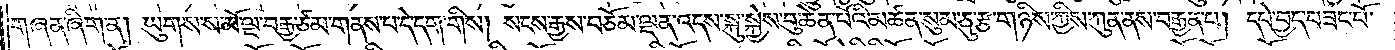གཞན་ཞིག་ན། ཡུགས་ས་མོ་ལྔ་བརྒྱ་ཙམ་གནས་པ་དེ་དག་གིས། སངས་རྒྱས་བཅོམ་ལྡན་འདས་སྐུ་སྐྱེས་བུ་ཆེན་པོའི་མཚན་སུམ་ཅུ་རྩ་གཉིས་ཀྱིས་ཀུན་ནས་བརྒྱན་པ། དཔེ་བྱད་བཟང་པོ་
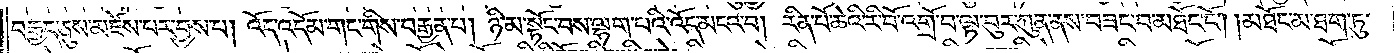བརྒྱད་ཅུས་མཛེས་པར་བྱས་པ། འོད་འདོམ་གང་གིས་བརྒྱན་པ། ཉི་མ་སྟོང་བས་ལྷག་པའི་འོད་མངའ་བ། རིན་པོ་ཆེའི་རི་བོ་འགྲོ་བ་ལྟ་བུར་ཀུན་ནས་བཟང་བ་མཐོང་ངོ༌། །མཐོང་མ་ཐག་ཏུ་
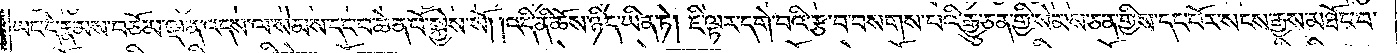ཡང་དེ་རྣམས་བཅོམ་ལྡན་འདས་ལ་སེམས་དང་བ་ཆེན་པོ་སྐྱེས་སོ། །འདི་ནི་ཆོས་ཉིད་ཡིན་ཏེ། ཇི་ལྟར་དགེ་བའི་རྩ་བ་བསགས་པའི་རྒྱུ་ཅན་གྱི་སེམས་ཅན་གྱིས་དང་པོར་སངས་རྒྱས་མཐོང་བ་
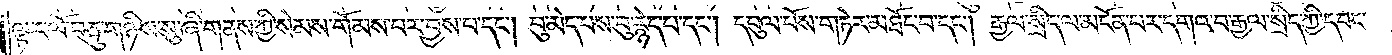ལྟར་ལོ་བཅུ་གཉིས་སུ་ཞི་གནས་ཀྱི་སེམས་གོམས་པར་བྱས་པ་དང༌། བུ་མེད་པས་བུ་རྙེད་པ་དང༌། དབུལ་པོས་གཏེར་མཐོང་བ་དང༌། རྒྱལ་སྲིད་ལ་མངོན་པར་དགའ་བ་རྒྱལ་སྲིད་ཀྱི་དབང་
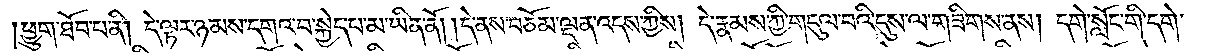ཕྱུག་ཐོབ་པ་ནི། དེ་ལྟར་ཉམས་དགའ་བ་སྐྱེད་པ་མ་ཡིན་ནོ། །དེ་ནས་བཅོམ་ལྡན་འདས་ཀྱིས། དེ་རྣམས་ཀྱི་གདུལ་བའི་དུས་ལ་གཟིགས་ནས། དགེ་སློང་གི་དགེ
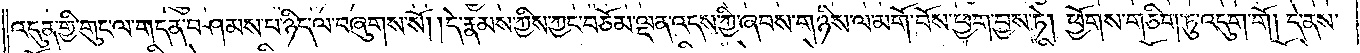འདུན་གྱི་གུང་ལ་གདན་བཤམས་པ་ཉིད་ལ་བཞུགས་སོ། །དེ་རྣམས་ཀྱིས་ཀྱང་བཅོམ་ལྡན་འདས་ཀྱི་ཞབས་གཉིས་ལ་མགོ་བོས་ཕྱག་བྱས་ཏེ། ཕྱོགས་གཅིག་ཏུ་འདུག་གོ། དེ་ནས་
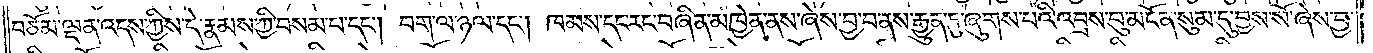བཅོམ་ལྡན་འདས་ཀྱིས་དེ་རྣམས་ཀྱི་བསམ་པ་དང༌། བག་ལ་ཉལ་དང༌། ཁམས་དང་རང་བཞིན་མཁྱེན་ནས་ཞེས་བྱ་བ་ནས་རྒྱུན་དུ་ཞུགས་པའི་འབྲས་བུ་མངོན་སུམ་དུ་བྱས་སོ་ཞེས་བྱ་
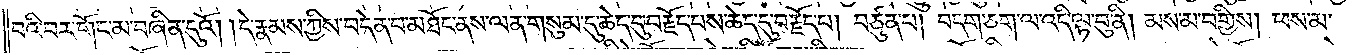བའི་བར་གོང་མ་བཞིན་དུའོ། །དེ་རྣམས་ཀྱིས་བདེན་པ་མཐོང་ནས་ལན་གསུམ་དུ་ཆེད་དུ་བརྗོད་པས་ཆེད་དུ་བརྗོད་པ། བཙུན་པ། བདག་ཅག་ལ་འདི་ལྟ་བུ་ནི། མས་མ་བགྱིས། ཕས་མ་
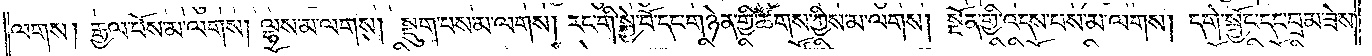ལགས། རྒྱལ་པོས་མ་ལགས། ལྷས་མ་ལགས། སྡུག་པས་མ་ལགས། རང་གི་སྐྱེ་བོ་དང་གཉེན་གྱི་ཚོགས་ཀྱིས་མ་ལགས། སྔོན་གྱི་འདས་པས་མ་ལགས། དགེ་སྦྱོང་དང་བྲམ་ཟེས་
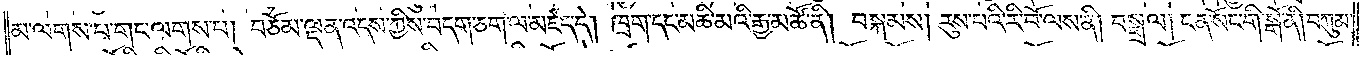མ་ལགས་པ་གང་ལགས། བཅོམ་ལྡན་འདས་ཀྱིས་བདག་ཅག་ལ་མཛད་དེ། ཁྲག་དང་མཆི་མའི་རྒྱ་མཚོ་ནི། བསྐམས། རུས་པའི་རི་བོ་ལས་ནི། བསྒྲལ། ངན་སོང་གི་སྒོ་ནི། བཀུམ་
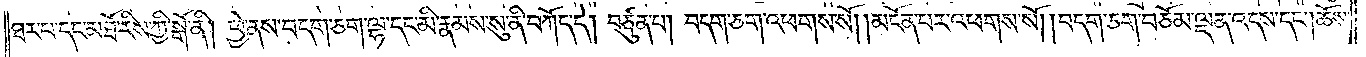ཐར་པ་དང་མཐོ་རིས་ཀྱི་སྒོ་ནི། ཕྱེ་ནས་བདག་ཅག་ལྷ་དང་མི་རྣམས་སུ་ནི་བཀོད་དེ། བཙུན་པ། བདག་ཅག་འཕགས་སོ། །མངོན་པར་འཕགས་སོ། །བདག་ཅག་བཅོམ་ལྡན་འདས་དང༌། ཆོས་
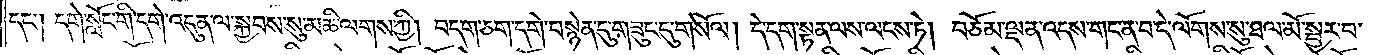དང༌། དགེ་སློང་གི་དགེ་འདུན་ལ་སྐྱབས་སུ་མཆིས་ལགས་ཀྱི། བདག་ཅག་དགེ་བསྙེན་དུ་གཟུང་དུ་གསོལ། དེ་དག་སྟན་ལས་ལངས་ཏེ། བཅོམ་ལྡན་འདས་གང་ན་བ་དེ་ལོགས་སུ་ཐལ་མོ་སྦྱར་བ་
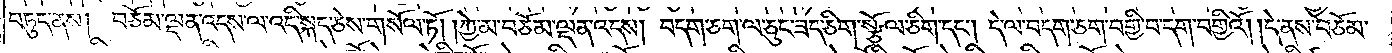བཏུད་ནས། བཅོམ་ལྡན་འདས་ལ་འདི་སྐད་ཅེས་གསོལ་ཏོ། །ཀྱེ་མ་བཅོམ་ལྡན་འདས། བདག་ཅག་ལ་ཅུང་ཟད་ཅིག་སྩོལ་ཅིག་དང༌། དེ་ལ་བདག་ཅག་བགྱི་བ་དག་བགྱིའོ། །དེ་ནས་བཅོམ་
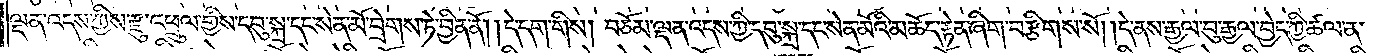ལྡན་འདས་ཀྱིས་རྫུ་འཕྲུལ་གྱིས་དབུ་སྐྲ་དང་སེན་མོ་བྲེགས་ཏེ་བྱིན་ནོ། །དེ་དག་གིས། བཅོམ་ལྡན་འདས་ཀྱི་དབུ་སྐྲ་དང་སེན་མོའི་མཆོད་རྟེན་ཞིག་བརྩིགས་སོ། །དེ་ནས་རྒྱལ་བུ་རྒྱལ་བྱེད་ཀྱི་ཚལ་ན་
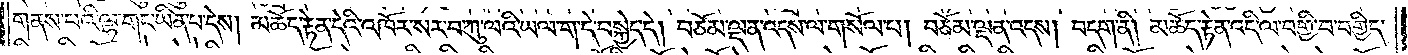གནས་པའི་ལྷ་གང་ཡིན་པ་དེས། མཆོད་རྟེན་དེའི་འཁོར་སར་བ་ཀུ་ལའི་ཡལ་ག་དེ་བསྐྱེད་དེ། བཅོམ་ལྡན་འདས་ལ་གསོལ་པ། བཅོམ་ལྡན་འདས། བདག་ནི། མཆོད་རྟེན་འདི་ལ་བགྱི་བ་བགྱིད་
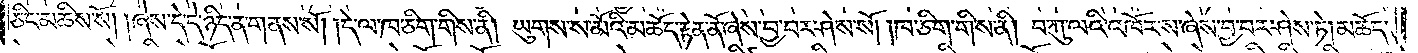ཅིང་མཆིས་སོ། །ཞེས་དེ་དེ་ཉིད་ན་གནས་སོ། །དེ་ལ་ཁ་ཅིག་གིས་ནི། ཡུགས་ས་མོའི་མཆོད་རྟེན་ནོ་ཞེས་བྱ་བར་ཤེས་སོ། །ཁ་ཅིག་གིས་ནི། བ་ཀུ་ལའི་འཁོར་ས་ཞེས་བྱ་བར་ཤེས་ཏེ། མཆོད་
